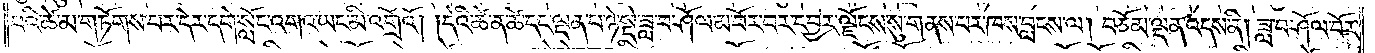པའི་ཚེ་མ་གཏོགས་པར་དེར་དགེ་སློང་འགའ་ཡང་མི་འགྲོའོ། །དེའི་ཚེ་ན་ཚེ་དང་ལྡན་པ་ཉེ་སྡེ་ཟླ་བ་ཤོལ་མ་བོར་བར་དབྱར་ལྗོངས་སུ་གནས་པར་ཁས་བླངས་ལ། བཅོམ་ལྡན་འདས་ནི། ཟླ་བ་ཤོལ་བོར་
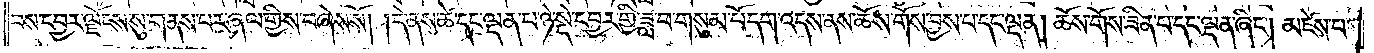བས་དབྱར་ལྗོངས་སུ་གནས་པར་ཞལ་གྱིས་བཞེས་སོ། །དེ་ནས་ཚེ་དང་ལྡན་པ་ཉེ་སྡེ་དབྱར་གྱི་ཟླ་བ་གསུམ་པོ་དག་འདས་ནས་ཆོས་གོས་བྱས་པ་དང་ལྡན། ཆོས་གོས་ཟིན་པ་དང་ལྡན་ཞིང༌། མཛེས་པ་
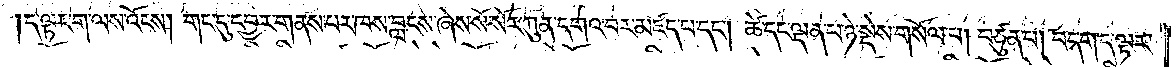ད་ལྟར་ག་ལས་འོངས། གང་དུ་དབྱར་གནས་པར་ཁས་བླངས་ཞེས་སོ་སོར་ཀུན་དགའ་བར་མཛད་པ་དང༌། ཚེ་དང་ལྡན་པ་ཉེ་སྡེས་གསོལ་པ། བཙུན་པ། བདག་ད་ལྟར་
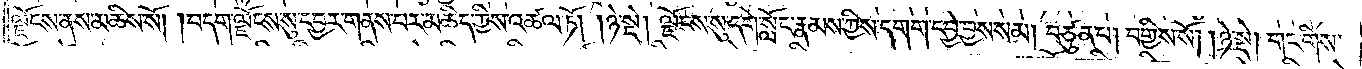ལྗོངས་ནས་མཆིས་སོ། །བདག་ལྗོངས་སུ་དབྱར་གནས་པར་མཆིད་ཀྱིས་འཚལ་ཏོ། །ཉེ་སྡེ། ལྗོངས་སུ་དགེ་སློང་རྣམས་ཀྱིས་དགག་དབྱེ་བྱས་སམ། བཙུན་པ། བགྱིས་སོ། །ཉེ་སྡེ། གང་གིས་
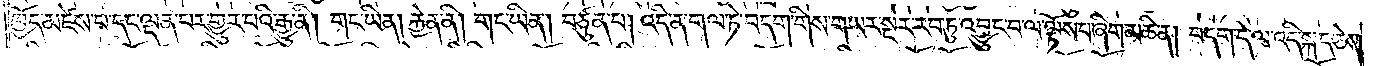ཁྱོད་མཛེས་པ་དང་ལྡན་པར་གྱུར་པའི་རྒྱུ་ནི། གང་ཡིན། རྐྱེན་ནི། གང་ཡིན། བཙུན་པ། འདི་ན་གལ་ཏེ་བདག་གིས་གཡར་སྔར་རབ་ཏུ་འབྱུང་བ་ལ་ལྟོས་པ་ཞིག་མཆི་ན། བདག་དེ་ལ་འདི་སྐད་ཅེས་
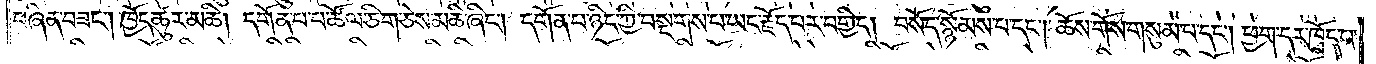བཞིན་བཟང༌། ཁྱོད་ཚུར་མཆི། དགོན་པ་པ་ཚོལ་ཅིག་ཅེས་མཆི་ཞིང༌། དགོན་པ་ཉིད་ཀྱི་བསྔགས་པ་ཡང་རྗོད་པར་བགྱིད། བསོད་སྙོམས་པ་དང༌། ཆོས་གོས་གསུམ་པ་དང༌། ཕྱག་དར་ཁྲོད་པ་
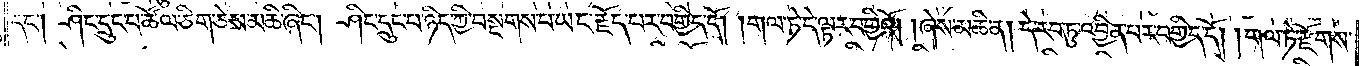དང༌། ཤིང་དྲུང་པ་ཚོལ་ཅིག་ཅེས་མཆི་ཞིང༌། ཤིང་དྲུང་པ་ཉིད་ཀྱི་བསྔགས་པ་ཡང་རྗོད་པར་བགྱིད་དོ། །གལ་ཏེ་དེ་ལྟར་བགྱིའོ། །ཞེས་མཆི་ན། དེ་རབ་ཏུ་འབྱིན་པར་བགྱིད་དོ། །གལ་ཏེ་རྫོགས་
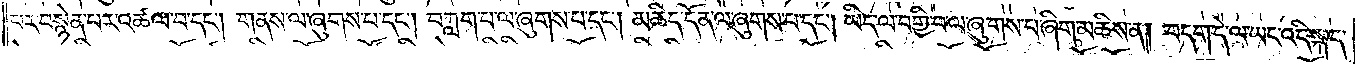པར་བསྙེན་པར་འཚལ་བ་དང༌། གནས་ལ་ཞུགས་པ་དང༌། བཀླག་པ་ལ་ཞུགས་པ་དང༌། མཆིད་དོན་ལ་ཞུགས་པ་དང༌། ཡིད་ལ་བགྱི་བ་ལ་ཞུགས་པ་ཞིག་མཆིས་ན། བདག་དེ་ལ་ཡང་འདི་སྐད་
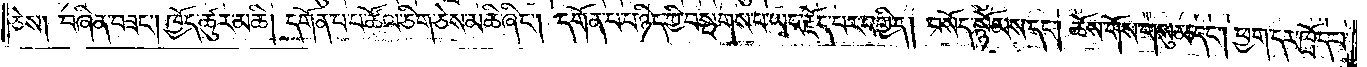ཅེས། བཞིན་བཟང༌། ཁྱོད་ཚུར་མཆི། དགོན་པ་པ་ཚོལ་ཅིག་ཅེས་མཆི་ཞིང༌། དགོན་པ་པ་ཉིད་ཀྱི་བསྔགས་པ་ཡང་རྗོད་པར་བགྱིད། བསོད་སྙོམས་དང༌། ཆོས་གོས་གསུམ་དང༌། ཕྱག་དར་ཁྲོད་པ་
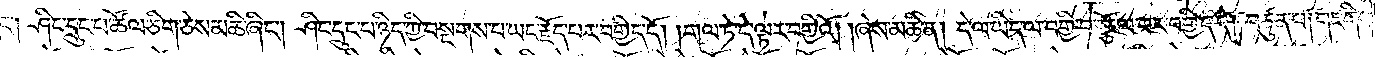དང༌། ཤིང་དྲུང་པ་ཚོལ་ཅིག་ཅེས་མཆི་ཞིང༌། ཤིང་དྲུང་པ་ཉིད་ཀྱི་བསྔགས་པ་ཡང་རྗོད་པར་བགྱིད་དོ། །གལ་ཏེ་དེ་ལྟར་བགྱིའོ། །ཞེས་མཆི་ན། དེ་ལ་ཡིད་ལ་བགྱི་བ་སྩོལ་བར་བགྱིད་དེ། བཙུན་པ། གང་གིས་
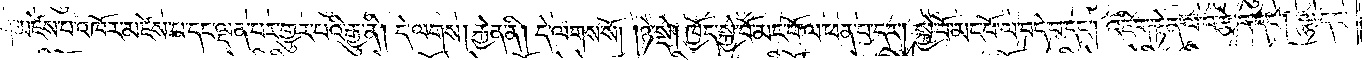བདག་མཛེས་པ་འཁོར་མཛེས་པ་དང་ལྡན་པར་གྱུར་པའི་རྒྱུ་ནི། དེ་ལགས། རྐྱེན་ནི། དེ་ལགས་སོ། །ཉེ་སྡེ། ཁྱོད་སྐྱེ་བོ་མང་པོ་ལ་ཕན་པ་དང༌། སྐྱེ་བོ་མང་པོ་ལ་བདེ་བ་དང༌། འཇིག་རྟེན་ལ་བརྩེ་བ་དང༌། ལྷ་དང་
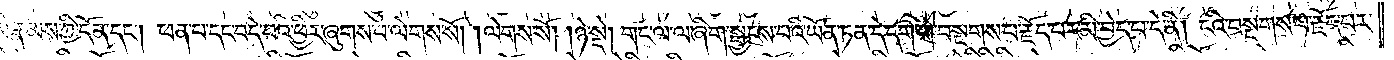མི་རྣམས་ཀྱི་དོན་དང༌། ཕན་པ་དང་བདེ་བའི་ཕྱིར་ཞུགས་པ་ལེགས་སོ། །ལེགས་སོ། །ཉེ་སྡེ། གང་ལ་ལ་ཞིག་སྦྱངས་པའི་ཡོན་ཏན་དེ་དག་གི་བསྔགས་པ་རྗོད་པར་མི་བྱེད་པ་དེ་ནི། ངའི་བསྔགས་པ་རྗོད་པར་
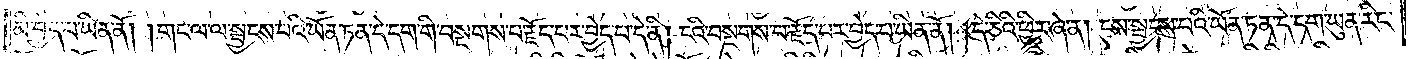མི་བྱེད་པ་ཡིན་ནོ། །གང་ལ་ལ་སྦྱངས་པའི་ཡོན་ཏན་དེ་དག་གི་བསྔགས་པ་རྗོད་པར་བྱེད་པ་དེ་ནི། ངའི་བསྔགས་པ་རྗོད་པར་བྱེད་པ་ཡིན་ནོ། །དེ་ཅིའི་ཕྱིར་ཞེ་ན། ངས་སྦྱངས་པའི་ཡོན་ཏན་དེ་དག་ཡུན་རིང་
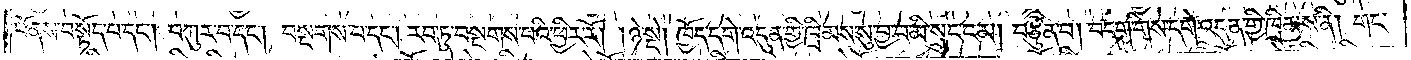པོ་ནས་བསྟོད་པ་དང༌། བཀུར་བ་དང༌། བསྔགས་པ་དང༌། རབ་ཏུ་བསྔགས་པའི་ཕྱིར་རོ། །ཉེ་སྡེ། ཁྱོད་དགེ་འདུན་གྱི་ཁྲིམས་སུ་བྱ་བ་མི་སྲུང་ངམ། བཙུན་པ། བདག་གིས་དགེ་འདུན་གྱི་ཁྲིམས་ནི། གང་
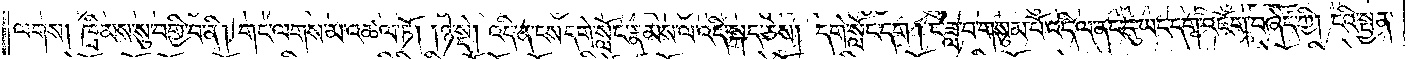ལགས། ཁྲིམས་སུ་བགྱི་བ་ནི། གང་ལགས་མ་འཚལ་ཏོ། །ཉེ་སྡེ། འདི་ན་ངས་དགེ་སློང་རྣམས་ལ་འདི་སྐད་ཅེས། དགེ་སློང་དག །ང་ཟླ་བ་གསུམ་པོ་འདི་ལ་ནང་དུ་ཡང་དག་འཇོག་བཞེད་ཀྱི། ངའི་སྤྱན་
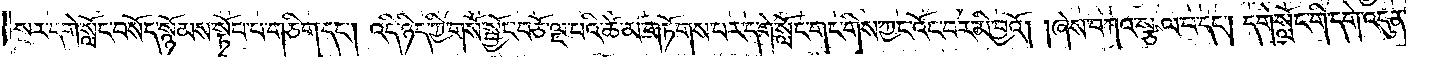སྔར་དགེ་སློང་བསོད་སྙོམས་སྟོབ་པ་གཅིག་དང༌། འདི་ཉིད་ཀྱི་གསོ་སྦྱོང་བཅོ་ལྔ་པའི་ཚེ་མ་གཏོགས་པར་དགེ་སློང་གང་གིས་ཀྱང་འོང་བར་མི་བྱའོ། །ཞེས་བཀའ་སྩལ་པ་དང༌། དགེ་སློང་གི་དགེ་འདུན་
